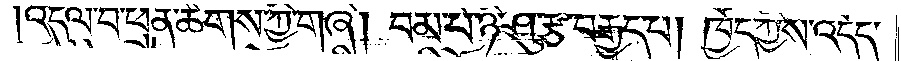འདུལ་བ་ཕྲན་ཚེགས་ཀྱི་གཞི། བམ་པོ་ཉི་ཤུ་རྩ་བརྒྱད་པ། ཁྱོད་ཀྱིས་འདོད་
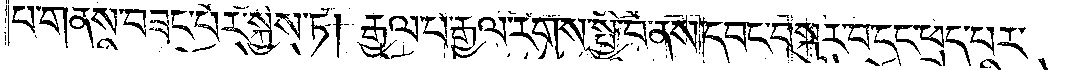པ་གནས་བཟང་པོར་སྐྱེས་ཏེ། རྒྱལ་པོ་རྒྱལ་རིགས་སྤྱི་བོ་ནས་དབང་བསྐུར་བ་དང་ཕྲད་པར་
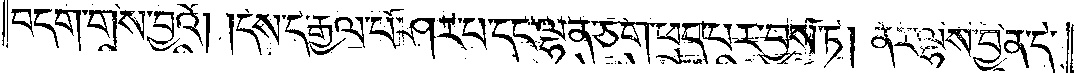བདག་གིས་བྱའོ། །དེས་དེ་རྒྱལ་པོ་ཤར་པ་དང་ལྷན་ཅིག་ཕྲད་པར་བྱས་ཏེ། ནོར་ལྷས་བྱིན་དེ་
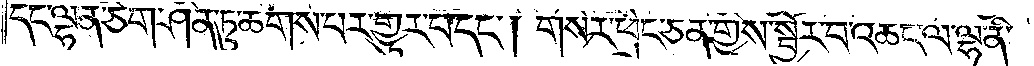དང་ལྷན་ཅིག་ཤིན་ཏུ་ཆགས་པར་གྱུར་པ་དང༌། གསེར་ཕྲེང་ཅན་གྱིས་སྦྱོར་བ་འཆང་ལ་ལྷ་ནི་
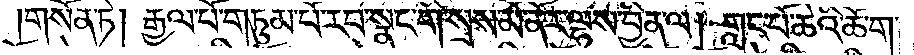གསོན་ཏེ། རྒྱལ་པོ་གཏུམ་པོ་རབ་སྣང་གི་སྲས་མོ་ནོར་ལྷས་བྱིན་ལ། གླང་པོ་ཆེའི་ཆོ་ག་
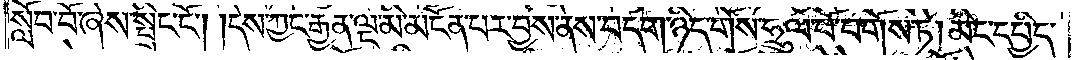སློབ་བོ་ཞེས་སྤྲིང་ངོ༌། །དེས་ཀྱང་རྒྱན་ལྔ་མི་མངོན་པར་བྱས་ནས་བདག་ཉིད་གོས་ཧྲུལ་པོ་བགོས་ཏེ། མིང་དཔྱིད་
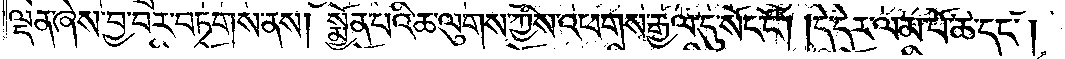ལྡན་ཞེས་བྱ་བར་བཏགས་ནས། སྨྱོན་པའི་ཆ་ལུགས་ཀྱིས་འཕགས་རྒྱལ་དུ་སོང་ངོ༌། །དེ་དེར་ལམ་པོ་ཆེ་དང༌།
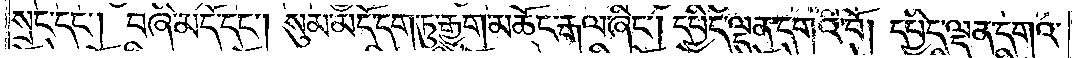སྲང་དང༌། བཞི་མདོ་དང༌། སུམ་མདོ་དག་ཏུ་རྒྱུག་མཆོང་རྒལ་ཞིང༌། དཔྱིད་ལྡན་དགའ་བོ། དཔྱིད་ལྡན་དགའ་
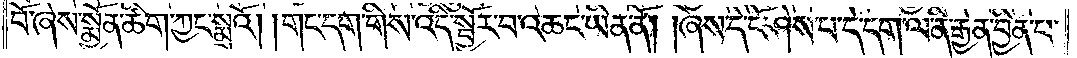བོ་ཞེས་སྨྱོན་ཚིག་ཀྱང་སྨྲའོ། །གང་དག་གིས་འདི་སྦྱོར་བ་འཆང་ཡིན་ནོ། །ཞེས་དེ་ངོ་ཤེས་པ་དེ་དག་ལ་ནི་རྒྱན་བྱིན་པ་
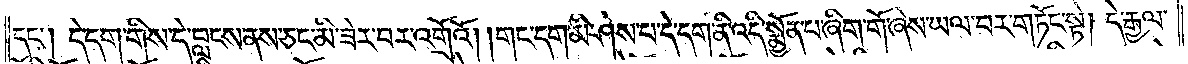དང༌། དེ་དག་གིས་དེ་བླངས་ནས་ཅང་མི་ཟེར་བར་འགྲོའོ། །གང་དག་མི་ཤེས་པ་དེ་དག་ནི་འདི་སྨྱོན་པ་ཞིག་གོ་ཞེས་ཡལ་བར་གཏོང་སྟེ། དེ་རྒྱལ་
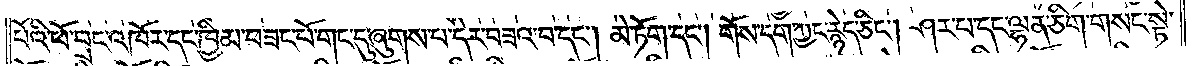པོའི་ཕོ་བྲང་འཁོར་དང་ཁྱིམ་བཟང་པོ་གང་དུ་ཞུགས་པ་དེར་བཟའ་བ་དང༌། མེ་ཏོག་དང༌། གོས་དག་ཀྱང་རྙེད་ཅིང༌། ཤར་པ་དང་ལྷན་ཅིག་གསང་སྟེ་
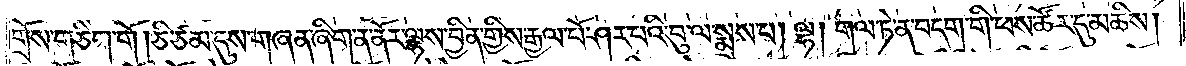གྲོས་གཅིག་གོ །ཅི་ཙམ་དུས་གཞན་ཞིག་ན་ནོར་ལྷས་བྱིན་གྱིས་རྒྱལ་པོ་ཤར་བའི་བུ་ལ་སྨྲས་པ། ལྷ། གལ་ཏེ་ན་བདག་གི་ཕས་ཚོར་དུ་མཆིས།
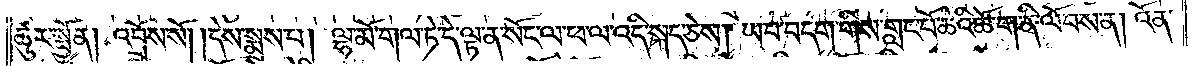ཚུར་སྤྱོན། འབྲོས་སོ། །དེས་སྨྲས་པ། ལྷ་མོ་གལ་ཏེ་དེ་ལྟ་ན་སོང་ལ་ཕ་ལ་འདི་སྐད་ཅེས། ཡབ་བདག་གིས་གླང་པོ་ཆེའི་ཆོ་ག་ནི་ལོབས་ན། འོན་
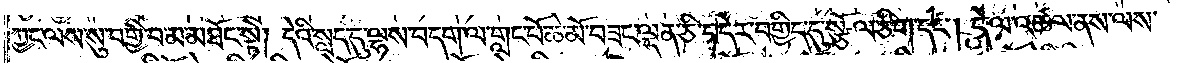ཀྱང་ལས་སུ་བགྱི་བ་མ་མཐོང་སྟེ། དེའི་སླད་དུ་ལྷས་བདག་ལ་གླང་པོ་ཆེ་མོ་བཟང་ལྡན་ཅི་བདེར་བགྱིད་དུ་སྩོལ་ཅིག་དང༌། དེ་ལ་འཚལ་ནས་ལས་
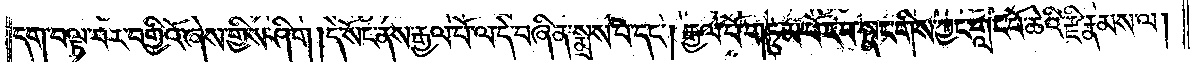དག་བལྟ་བར་བགྱིའོ་ཞེས་གྱིས་ཤིག །དེ་སོང་ནས་རྒྱལ་པོ་ལ་དེ་བཞིན་སྨྲས་པ་དང༌། རྒྱལ་པོ་གཏུམ་པོ་རབ་སྣང་གིས་ཀྱང་གླང་པོ་ཆེའི་རྫི་རྣམས་ལ།
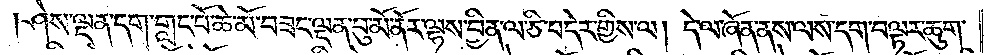ཤེས་ལྡན་དག་གླང་པོ་ཆེ་མོ་བཟང་ལྡན་བུ་མོ་ནོར་ལྷས་བྱིན་ལ་ཅི་བདེར་གྱིས་ལ། དེ་ལ་ཞོན་ནས་ལས་དག་བལྟར་ཆུག་
